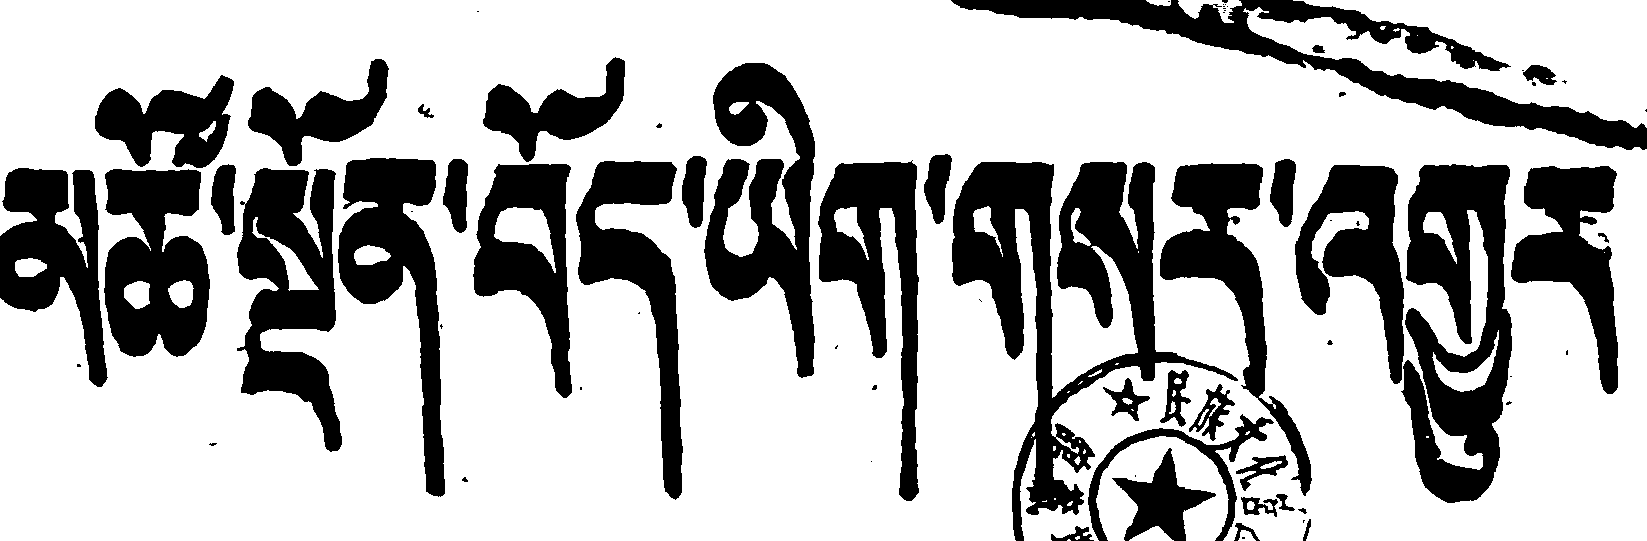མཚོ་སྔོན་བོད་ཡིག་གསར་འགྱུར
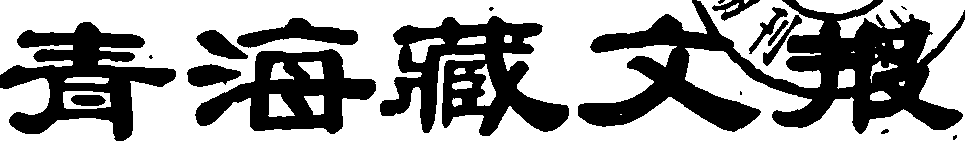青海藏文报
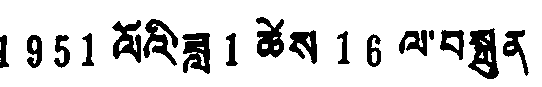1951ལོའི་ཟླ 1ཚེས 16ལ་བསྐྲུན
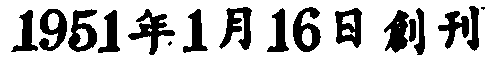1951年1月16日創刊
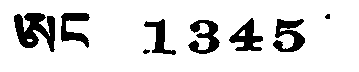ཨང 1345
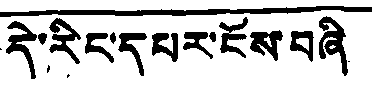དེ་རིང་དཔར་ངོས་བཞི
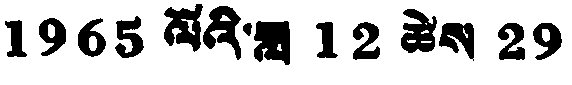1965 ལོའི་ཟླ 12 ཚེས 29
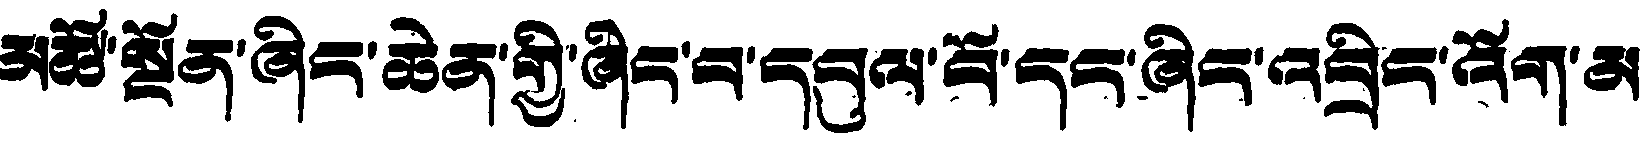མཚོ་སྔོན་ཞིང་ཆེན་གྱི་ཞིང་བ་དབུལ་བོ་དང་ཞིང་འབྲིང་འོག་མ
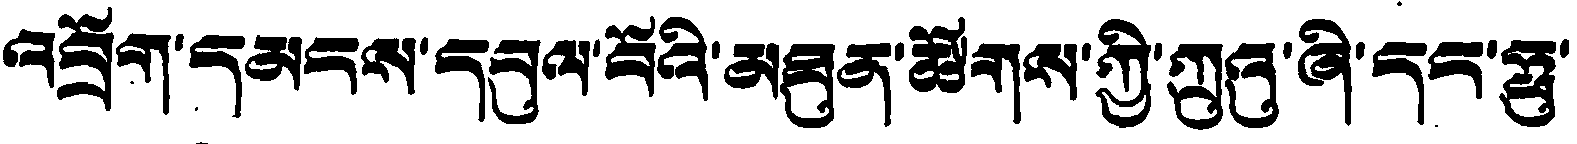འབྲོག་དམརས་དབུལ་བོའི་མཐུན་ཚོགས་ཀྱི་ཀྲུའུ་ཞི་དང་ཧྥུ་
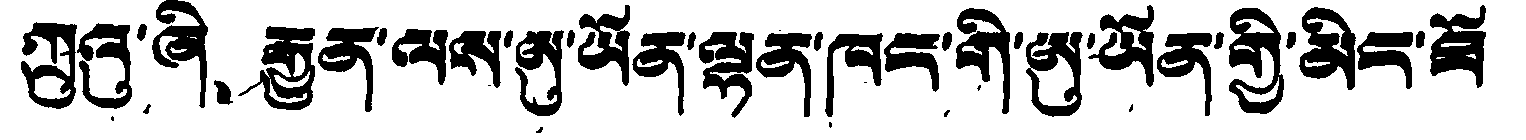ཀྲུའུ་ཞི、 རྒྱུན་ལས་ཨུ་ཡོན་ལྷན་ཁང་གི་ཨུ་ཡོན་གྱི་མིང་ཐོ
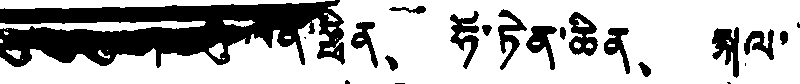ཧྥུ་ཀྲུའུ་ཞི་ཞུ་ལིན་ཧྥིན、 ཧོ་ཏེན་ཆིན、 སྐལ་
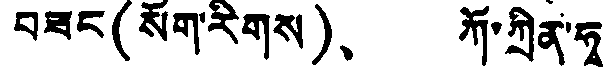བཟང(སོག་རིགས)、 ཀོ་ཀྲིན་ཧྭ་
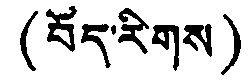(བོད་རིགས)
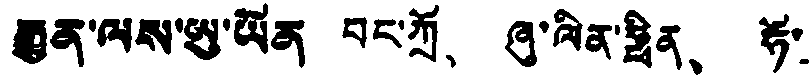རྒྱུན་ལས་ཨུ་ཡོན བང་ཀྲོ、 ཞུ་ལིན་ཧྥིན、 ཧོ་
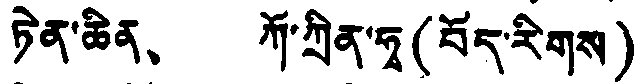ཏེན་ཆིན、 ཀོ་ཀྲིན་ཧྭ (བོད་རིགས)
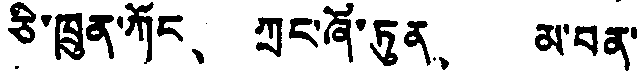ཅི་ཁྲུན་ཀོང、 ཀྲང་ཞོ་ཏུན、 མ་བན་
